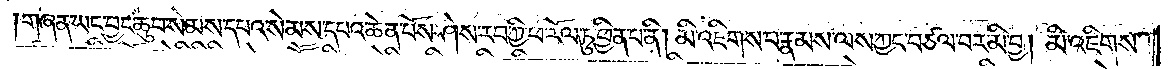གཞན་ཡང་བྱང་ཆུབ་སེམས་དཔའ་སེམས་དཔའ་ཆེན་པས་ཤེས་རབ་ཀྱི་ཕ་རོལ་ཏུ་ཕྱིན་པ་ནི། མི་འཇིགས་པ་རྣམས་ལས་ཀྱང་བཙལ་བར་མི་བྱ། མི་འཇིགས་
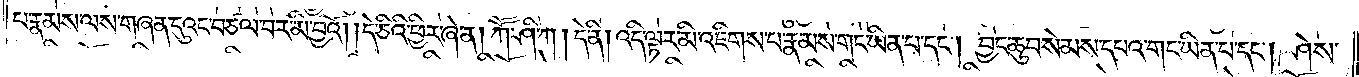པ་རྣམས་ལས་གཞན་དུའང་བཙལ་བར་མི་བྱའོ། །དེ་ཅིའི་ཕྱིར་ཞེ་ན། ཀཽ་ཤི་ཀ། དེ་ནི། འདི་ལྟར་མི་འཇིགས་པ་རྣམས་གང་ཡིན་པ་དང༌། བྱང་ཆུབ་སེམས་དཔའ་གང་ཡིན་པ་དང༌། ཤེས་
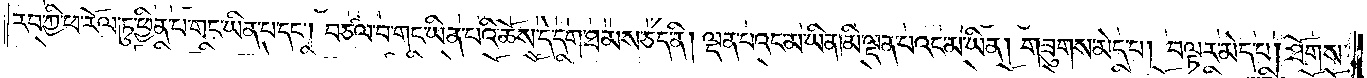རབ་ཀྱི་ཕ་རོལ་ཏུ་ཕྱིན་པ་གང་ཡིན་པ་དང༌། བཙལ་བ་གང་ཡིན་པའི་ཆོས་དེ་དག་ཐམས་ཅད་ནི། ལྡན་པའང་མ་ཡིན། མི་ལྡན་པའང་མ་ཡིན། གཟུགས་མེད་པ། བལྟར་མེད་པ། ཐོགས་
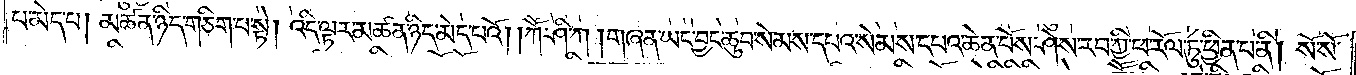པ་མེད་པ། མཚན་ཉིད་གཅིག་པ་སྟེ། འདི་ལྟར་མཚན་ཉིད་མེད་པའོ། །ཀཽ་ཤི་ཀ། གཞན་ཡང་བྱང་ཆུབ་སེམས་དཔའ་སེམས་དཔའ་ཆེན་པོས་ཤེས་རབ་ཀྱི་ཕ་རོལ་ཏུ་ཕྱིན་པ་ནི། སོ་སོ་
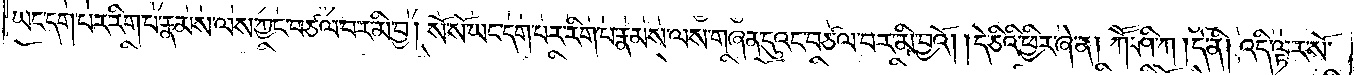ཡང་དག་པར་རེག་པ་རྣམས་ལས་ཀྱང་བཙལ་བར་མི་བྱ། སོ་སོ་ཡང་དག་པར་རིག་པ་རྣམས་ལས་གཞན་དུའང་བཙལ་བར་མི་བྱའོ། །དེ་ཅིའི་ཕྱིར་ཞེ་ན། ཀཽ་ཤི་ཀ །དེ་ནི། འདི་ལྟར་སོ་
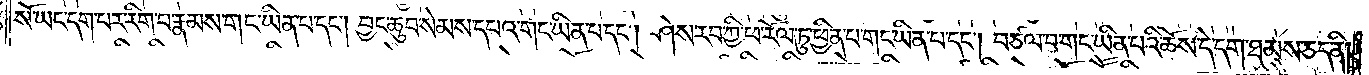སོ་ཡང་དག་པར་རིག་པ་རྣམས་གང་ཡིན་པ་དང༌། བྱང་ཆུབ་སེམས་དཔའ་གང་ཡིན་པ་དང༌། ཤེས་རབ་ཀྱི་ཕ་རོལ་ཏུ་ཕྱིན་པ་གང་ཡིན་པ་དང༌། བཙལ་བ་གང་ཡིན་པའི་ཆོས་དེ་དག་ཐམས་ཅད་ནི།
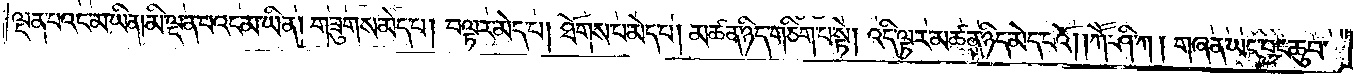ལྡན་པའང་མ་ཡིན། མི་ལྡན་པའང་མ་ཡིན། གཟུགས་མེད་པ། བལྟར་མེད་པ། ཐོགས་པ་མེད་པ། མཚན་ཉིད་གཅིག་པ་སྟེ། འདི་ལྟར་མཚན་ཉིད་མེད་པའོ། །ཀཽ་ཤི་ཀ། གཞན་ཡང་བྱང་ཆུབ་
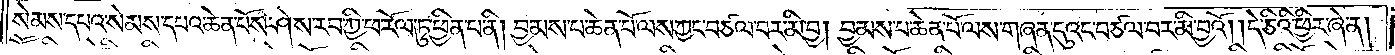སེམས་དཔའ་སེམས་དཔའ་ཆེན་པོས་ཤེས་རབ་ཀྱི་ཕ་རོལ་ཏུ་ཕྱིན་པ་ནི། བྱམས་པ་ཆེན་པོ་ལས་ཀྱང་བཙལ་བར་མི་བྱ། བྱམས་པ་ཆེན་པོ་ལས་གཞན་དུའང་བཙལ་བར་མི་བྱའོ། །དེ་ཅིའི་ཕྱིར་ཞེ་ན།
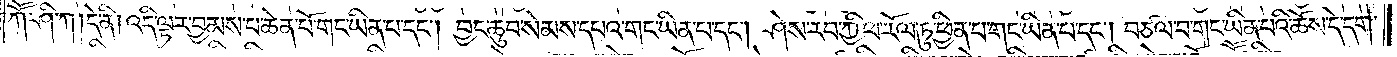ཀཽ་ཤི་ཀ །དེ་ནི། འདི་ལྟར་བྱམས་པ་ཆེན་པོ་གང་ཡིན་པ་དང༌། བྱང་ཆུབ་སེམས་དཔའ་གང་ཡིན་པ་དང༌། ཤེས་རབ་ཀྱི་ཕ་རོལ་ཏུ་ཕྱིན་པ་གང་ཡིན་པ་དང༌། བཙལ་བ་གང་ཡིན་པའི་ཆོས་དེ་དག་
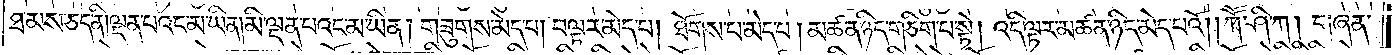ཐམས་ཅད་ནི་ལྡན་པའང་མ་ཡིན་མི་ལྡན་པའང་མ་ཡིན། གཟུགས་མེད་པ། བལྟར་མེད་པ། ཐོགས་པ་མེད་པ། མཚན་ཉིད་གཅིག་པ་སྟེ། འདི་ལྟར་མཚན་ཉིད་མེད་པའོ། །ཀཽ་ཤི་ཀ། གཞན་
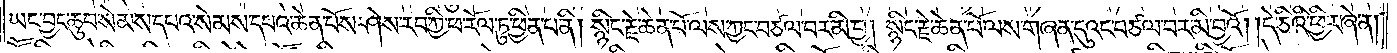ཡང་བྱང་ཆུབ་སེམས་དཔའ་སེམས་དཔའ་ཆེན་པོས་ཤེས་རབ་ཀྱི་ཕ་རོལ་ཏུ་ཕྱིན་པ་ནི། སྙིང་རྗེ་ཆེན་པོ་ལས་ཀྱང་བཙལ་བར་མི་བྱ། སྙིང་རྗེ་ཆེན་པོ་ལས་གཞན་དུའང་བཙལ་བར་མི་བྱའོ། །དེ་ཅིའི་ཕྱིར་ཞེ་ན།
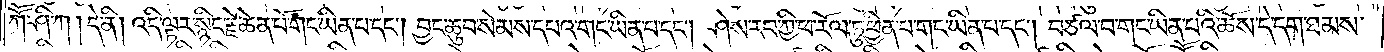ཀཽ་ཤི་ཀ། དེ་ནི། འདི་ལྟར་སྙིང་རྗེ་ཆེན་པོ་གང་ཡིན་པ་དང༌། བྱང་ཆུབ་སེམས་དཔའ་གང་ཡིན་པ་དང༌། ཤེས་རབ་ཀྱི་ཕ་རོལ་ཏུ་ཕྱིན་པ་གང་ཡིན་པ་དང༌། བཙལ་བ་གང་ཡིན་པའི་ཆོས་དེ་དག་ཐམས་
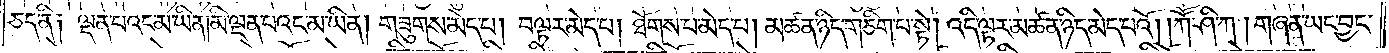ཅད་ནི། ལྡན་པའང་མ་ཡིན། མི་ལྡན་པའང་མ་ཡིན། གཟུགས་མེད་པ། བལྟར་མེད་པ། ཐོགས་པ་མེད་པ། མཚན་ཉིད་གཅིག་པ་སྟེ། འདི་ལྟར་མཚན་ཉིད་མེད་པའོ། །ཀཽ་ཤི་ཀ། གཞན་ཡང་བྱང་
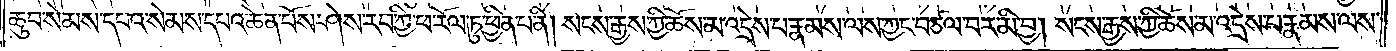ཆུབ་སེམས་དཔའ་སེམས་དཔའ་ཆེན་པོས་ཤེས་རབ་ཀྱི་ཕ་རོལ་ཏུ་ཕྱིན་པ་ནི། སངས་རྒྱས་ཀྱི་ཆོས་མ་འདྲེས་པ་རྣམས་ལས་ཀྱང་བཙལ་བར་མི་བྱ། སངས་རྒྱས་ཀྱི་ཚོས་མ་འདྲེས་པ་རྣམས་ལས་
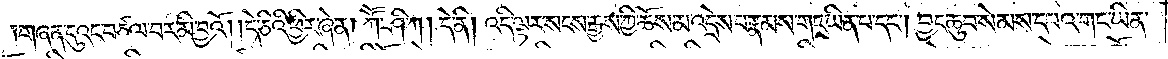གཞན་དུའང་བཙལ་བར་མི་བྱའོ། །དེ་ཅིའི་ཕྱིར་ཞེ་ན། ཀཽ་ཤི་ཀ། དེ་ནི། འདི་ལྟར་སངས་རྒྱས་ཀྱི་ཆོས་མ་འདྲེས་པ་རྣམས་གང་ཡིན་པ་དང༌། བྱང་ཆུབ་སེམས་དཔའ་གང་ཡིན་
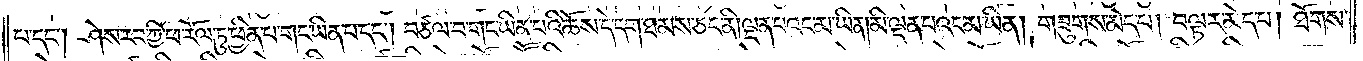པ་དང༌། ཤེས་རབ་ཀྱི་ཕ་རོལ་ཏུ་ཕྱིན་པ་གང་ཡིན་པ་དང༌། བཙལ་བ་གང་ཡིན་པའི་ཆོས་དེ་དག་ཐམས་ཅད་ནི། ལྡན་པའང་མ་ཡིན། མི་ལྡན་པའང་མ་ཡིན། གཟུགས་མེད་པ། བལྟར་མེད་པ། ཐོགས་
